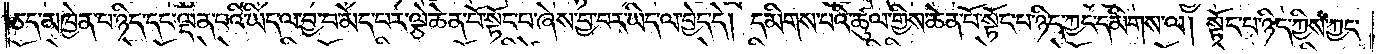ཅད་མཁྱེན་པ་ཉིད་དང་ལྡན་པའི་ཡིད་ལ་བྱ་བ་མེད་པར་ལྕེ་ཆེན་པོ་སྟོང་པ་ཞེས་བྱ་བར་ཡིད་ལ་བྱེད་དེ། དམིགས་པའི་ཚུལ་གྱིས་ཆེན་པོ་སྟོང་པ་ཉིད་ཀྱང་དམིགས་ལ། སྟོང་པ་ཉིད་ཀྱིས་ཀྱང་
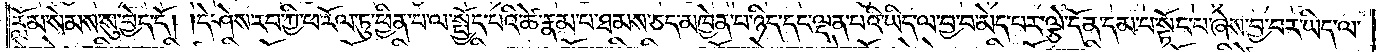རློམ་སེམས་སུ་བྱེད་དོ། །དེ་ཤེས་རབ་ཀྱི་ཕ་རོལ་ཏུ་ཕྱིན་པ་ལ་སྤྱོད་པའི་ཚེ་རྣམ་པ་ཐམས་ཅད་མཁྱེན་པ་ཉིད་དང་ལྡན་པའི་ཡིད་ལ་བྱ་བ་མེད་པར་ལྕེ་དོན་དམ་པ་སྟོང་པ་ཞེས་བྱ་བར་ཡིད་ལ་
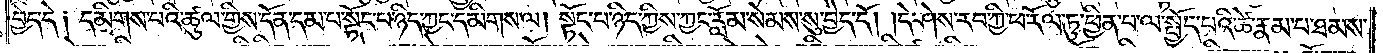བྱེད་དེ༑ དམིགས་པའི་ཚུལ་གྱིས་དོན་དམ་པ་སྟོང་པ་ཉིད་ཀྱང་དམིགས་ལ། སྟོང་པ་ཉིད་ཀྱིས་ཀྱང་རློམ་སེམས་སུ་བྱེད་དོ། །དེ་ཤེས་རབ་ཀྱི་ཕ་རོལ་ཏུ་ཕྱིན་པ་ལ་སྤྱོད་པའི་ཚེ་རྣམ་པ་ཐམས་
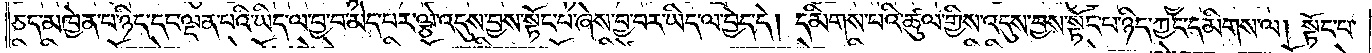ཅད་མཁྱེན་པ་ཉིད་དང་ལྡན་པའི་ཡིད་ལ་བྱ་བ་མེད་པར་ལྕེ་འདུས་བྱས་སྟོང་པ་ཞེས་བྱ་བར་ཡིད་ལ་བྱེད་དེ། དམིགས་པའི་ཚུལ་གྱིས་འདུས་བྱས་སྟོང་པ་ཉིད་ཀྱང་དམིགས་ལ། སྟོང་པ་
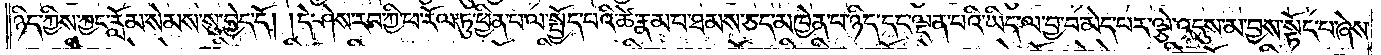ཉིད་ཀྱིས་ཀྱང་རློམ་སེམས་སུ་བྱེད་དོ། །དེ་ཤེས་རབ་ཀྱི་ཕ་རོལ་ཏུ་ཕྱིན་པ་ལ་སྤྱོད་པའི་ཚེ་རྣམ་པ་ཐམས་ཅད་མཁྱེན་པ་ཉིད་དང་ལྡན་པའི་ཡིད་ལ་བྱ་བ་མེད་པར་ལྕེ་འདུས་མ་བྱས་སྟོང་པ་ཞེས་
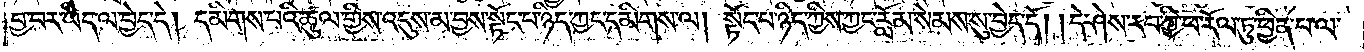བྱ་བར་ཡིད་ལ་བྱེད་དེ། དམིགས་པའི་ཚུལ་གྱིས་འདུས་མ་བྱས་སྟོང་པ་ཉིད་ཀྱང་དམིགས་ལ། སྟོང་པ་ཉིད་ཀྱིས་ཀྱང་རློམ་སེམས་སུ་བྱེད་དོ། །དེ་ཤེས་རབ་ཀྱི་ཕ་རོལ་ཏུ་ཕྱིན་པ་ལ་
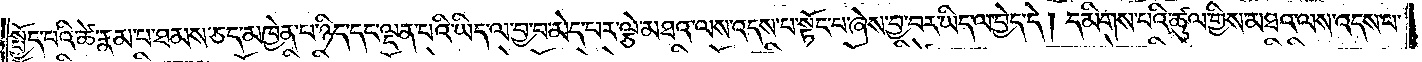སྤྱོད་པའི་ཚེ་རྣམ་པ་ཐམས་ཅད་མཁྱེན་པ་ཉིད་དང་ལྡན་པའི་ཡིད་ལ་བྱ་བ་མེད་པར་ལྕེ་མཐའ་ལས་འདས་པ་སྟོང་པ་ཞེས་བྱ་བར་ཡིད་ལ་བྱེད་དེ། དམིགས་པའི་ཚུལ་གྱིས་མཐའ་ལས་འདས་པ་
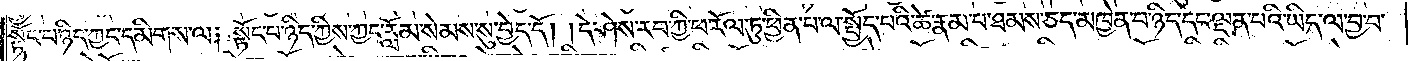སྟོང་པ་ཉིད་ཀྱང་དམིགས་ལ། སྟོང་པ་ཉིད་ཀྱིས་ཀྱང་རློམ་སེམས་སུ་བྱེད་དོ། །དེ་ཤེས་རབ་ཀྱི་ཕ་རོལ་ཏུ་ཕྱིན་པ་ལ་སྤྱོད་པའི་ཚེ་རྣམ་པ་ཐམས་ཅད་མཁྱེན་པ་ཉིད་དང་ལྡན་པའི་ཡིད་ལ་བྱ་བ་
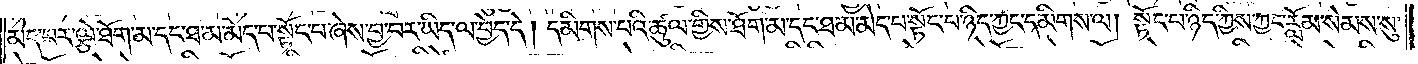མེད་པར་ལྕེ་ཐོག་མ་དང་ཐ་མ་མེད་པ་སྟོང་པ་ཞེས་བྱ་བར་ཡིད་ལ་བྱེད་དེ། དམིགས་པའི་ཚུལ་གྱིས་ཐོག་མ་དང་ཐ་མ་མེད་པ་སྟོང་པ་ཉིད་ཀྱང་དམིགས་ལ། སྟོང་པ་ཉིད་ཀྱིས་ཀྱང་རློམ་སེམས་སུ་
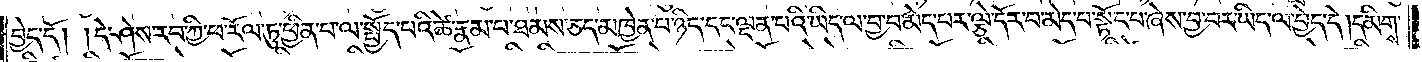བྱེད་དོ། །དེ་ཤེས་རབ་ཀྱི་ཕ་རོལ་ཏུ་ཕྱིན་པ་ལ་སྤྱོད་པའི་ཚེ་རྣམ་པ་ཐམས་ཅད་མཁྱེན་པ་ཉིད་དང་ལྡན་པའི་ཡིད་ལ་བྱ་བ་མེད་པར་ལྕེ་དོར་བ་མེད་པ་སྟོང་པ་ཞེས་བྱ་བར་ཡིད་ལ་བྱེད་དེ། དམིགས་
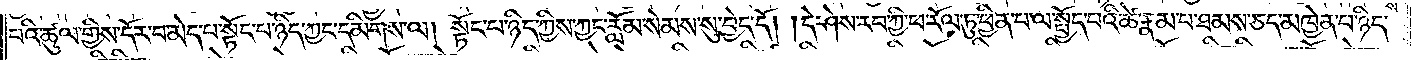པའི་ཚུལ་གྱིས་དོར་བ་མེད་པ་སྟོང་པ་ཉིད་ཀྱང་དམིགས་ལ། སྟོང་པ་ཉིད་ཀྱིས་ཀྱང་རློམ་སེམས་སུ་བྱེད་དོ། །དེ་ཤེས་རབ་ཀྱི་ཕ་རོལ་ཏུ་ཕྱིན་པ་ལ་སྤྱོད་པའི་ཚེ་རྣམ་པ་ཐམས་ཅད་མཁྱེན་པ་ཉིད་
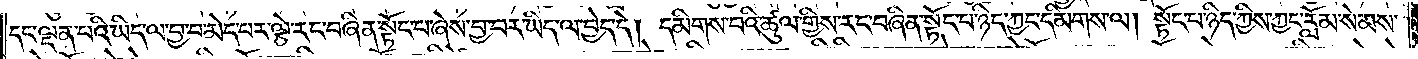དང་ལྡན་པའི་ཡིད་ལ་བྱ་བ་མེད་པར་ལྕེ་རང་བཞིན་སྟོང་པ་ཞེས་བྱ་བར་ཡིད་ལ་བྱེད་དེ། དམིགས་པའི་ཚུལ་གྱིས་རང་བཞིན་སྟོང་པ་ཉིད་ཀྱང་དམིགས་ལ། སྟོང་པ་ཉིད་ཀྱིས་ཀྱང་རློམ་སེམས་
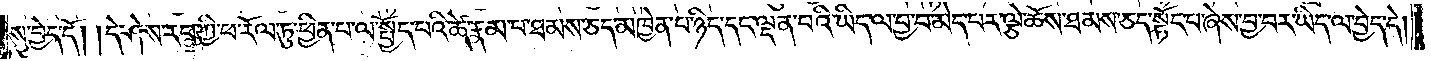སུ་བྱེད་དོ། །དེ་ཤེས་རབ་ཀྱི་ཕ་རོལ་ཏུ་ཕྱིན་པ་ལ་སྤྱོད་པའི་ཚེ་རྣམ་པ་ཐམས་ཅད་མཁྱེན་པ་ཉིད་དང་ལྡན་པའི་ཡིད་ལ་བྱ་བ་མེད་པར་ལྕེ་ཆོས་ཐམས་ཅད་སྟོང་པ་ཞེས་བྱ་བར་ཡིད་ལ་བྱེད་དེ།
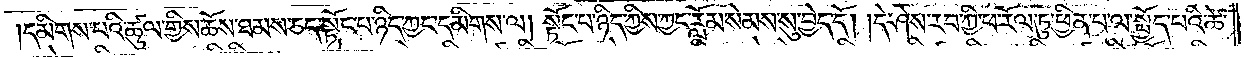དམིགས་པའི་ཚུལ་གྱིས་ཆོས་ཐམས་ཅད་སྟོང་པ་ཉིད་ཀྱང་དམིགས་ལ། སྟོང་པ་ཉིད་ཀྱིས་ཀྱང་རློམ་སེམས་སུ་བྱེད་དོ། །དེ་ཤེས་རབ་ཀྱི་ཕ་རོལ་ཏུ་ཕྱིན་པ་ལ་སྤྱོད་པའི་ཚེ་
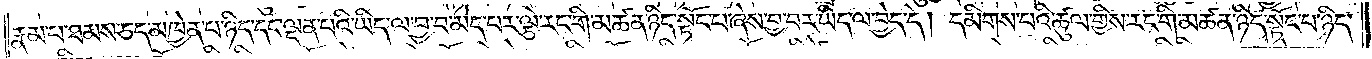རྣམ་པ་ཐམས་ཅད་མཁྱེན་པ་ཉིད་དང་ལྡན་པའི་ཡིད་ལ་བྱ་བ་མེད་པར་ལྕེ་རང་གི་མཚན་ཉིད་སྟོང་པ་ཞེས་བྱ་བར་ཡིད་ལ་བྱེད་དེ། དམིགས་པའི་ཚུལ་གྱིས་རང་གི་མཚན་ཉིད་སྟོང་པ་ཉིད་
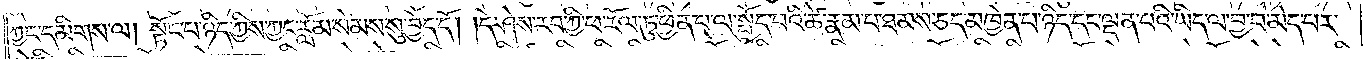ཀྱང་དམིགས་ལ། སྟོང་པ་ཉིད་ཀྱིས་ཀྱང་རློམ་སེམས་སུ་བྱེད་དོ། །དེ་ཤེས་རབ་ཀྱི་ཕ་རོལ་ཏུ་ཕྱིན་པ་ལ་སྤྱོད་པའི་ཚེ་རྣམ་པ་ཐམས་ཅད་མཁྱེན་པ་ཉིད་དང་ལྡན་པའི་ཡིད་ལ་བྱ་བ་མེད་པར་
